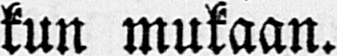kun mukaan.
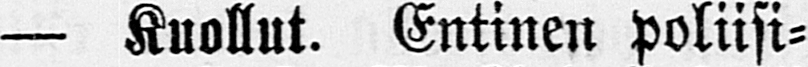— Kuollut. Entinen poliisi-
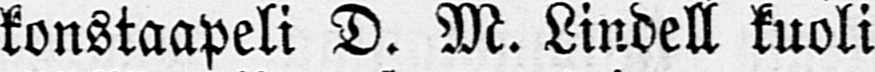konstaapeli D. M. Lindell kuoli
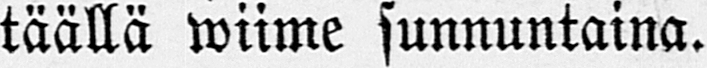täällä wiime sunnuntaina.
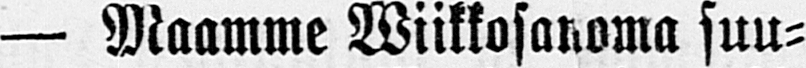— Maamme Wiikkosanoma suu-
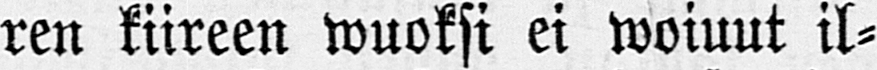ren kiireen wuoksi ei woiuut il-
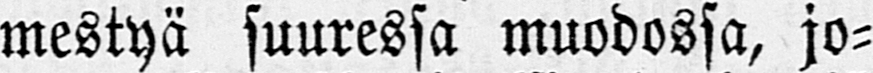mestyä suuressa muodossa, jo-
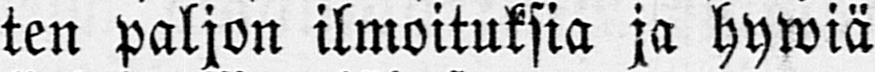ten paljon ilmoituksia ja hywiä
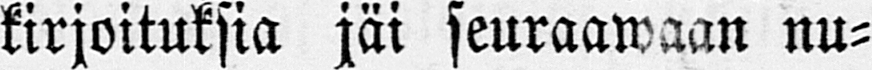kirjoituksia jäi seuraawaan nu-
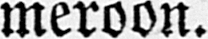meroon.
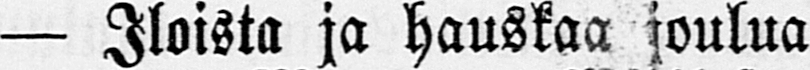— Iloista ja hauskaa joulua
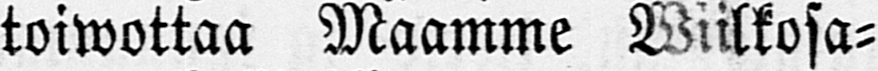toiwottaa Maamme Wiilkosa-
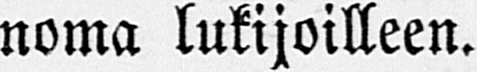noma lukijoilleen.
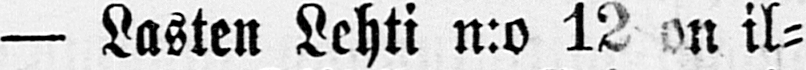— Lasten Lehti n:o 12 on il-
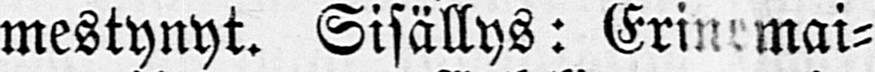mestynyt. Sisällys: Erinomai-
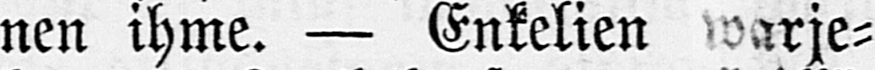nen ihme. — Enkelien warje-
